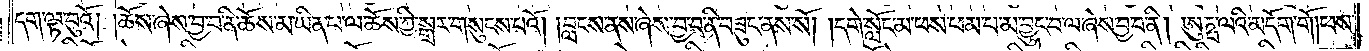དག་ལྟ་བུའོ། །ཆོས་ཞེས་བྱ་བ་ནི་ཆོས་མ་ཡིན་པ་ལ་ཆོས་ཀྱི་སྒྲར་གསུངས་པའོ། །བླངས་ནས་ཞེས་བྱ་བ་ནི་བཟུང་ནས་སོ། །དགེ་སློང་མ་ཕས་ཕམ་པ་མ་བྱུང་བ་ལ་ཞེས་བྱ་བ་ནི། ཨུཏྤ་ལའི་མདོག་གོ །ཕས་
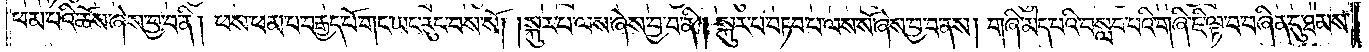ཕམ་པའི་ཆོས་ཞེས་བྱ་བ་ནི། ཕས་ཕམ་པ་བརྒྱད་པོ་གང་ཡང་རུང་བས་སོ། །སྐུར་པ་ལས་ཞེས་བྱ་བ་ནི། སྐུར་བ་བཏབ་པ་ལས་སོ་ཞེས་བྱ་བ་ནས། གཞི་མེད་པའི་བསླབ་པའི་གཞི་ཇི་ལྟ་བ་བཞིན་དུ་ཐམས་
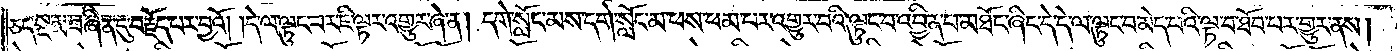ཅད་སྔ་མ་བཞིན་དུ་བརྗོད་པར་བྱའོ། །དེ་ལ་ལྟུང་བར་ཇི་ལྟར་འགྱུར་ཞེ་ན། དགེ་སློང་མས་དགེ་སློང་མ་ཕས་ཕམ་པར་འགྱུར་བའི་ལྟུང་བ་བྱིན་པ་མཐོང་ཞིང་དེ་དེ་ལ་ལྟུང་བ་མེད་པའི་ལྟ་བ་ཐོབ་པར་གྱུར་ནས།
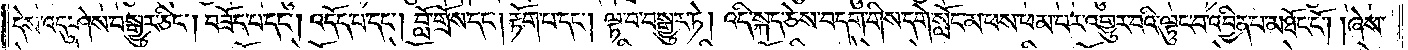དེས་འདུ་ཤེས་བསྒྱུར་ཅིང༌། བཟོད་པ་དང༌། འདོད་པ་དང༌། བློ་གྲོས་དང༌། རྟོག་པ་དང༌། ལྟ་བ་བསྒྱུར་ཏེ། འདི་སྐད་ཅེས་བདག་གིས་དགེ་སློང་མ་ཕས་ཕམ་པར་འགྱུར་བའི་ལྟུང་བ་འབྱིན་པ་མཐོང་ངོ༌། །ཞེས་
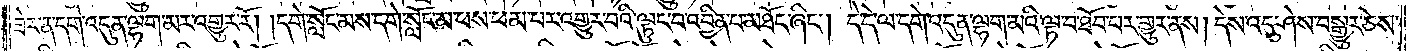ཟེར་ན་དགེ་འདུན་ལྷག་མར་འགྱུར་རོ། །དགེ་སློང་མས་དགེ་སློང་མ་ཕས་ཕམ་པར་འགྱུར་བའི་ལྟུང་བ་འབྱིན་པ་མཐོང་ཞིང༌། དེ་དེ་ལ་དགེ་འདུན་ལྷག་མའི་ལྟ་བ་ཐོབ་པར་གྱུར་ནས། དེས་འདུ་ཤེས་བསྒྱུར་ཅེས་
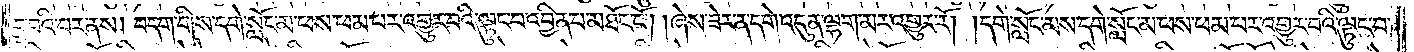བྱ་བའི་བར་ནས། བདག་གིས་དགེ་སློང་མ་ཕས་ཕམ་པར་འགྱུར་བའི་ལྟུང་བ་འབྱིན་པ་མཐོང་ངོ༌། །ཞེས་ཟེར་ན་དགེ་འདུན་ལྷག་མར་འགྱུར་རོ། །དགེ་སློང་མས་དགེ་སློང་མ་ཕས་ཕམ་པར་འགྱུར་བའི་ལྟུང་བ་
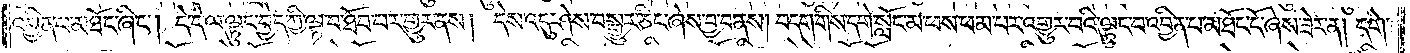འབྱིན་པ་མཐོང་ཞིང༌། དེ་དེ་ལ་ལྟུང་བྱེད་ཀྱི་ལྟ་བ་ཐོབ་པར་གྱུར་ནས། དེས་འདུ་ཤེས་བསྒྱུར་ཅིང་ཞེས་བྱ་བ་ནས། བདག་གིས་དགེ་སློང་མ་ཕས་ཕམ་པར་འགྱུར་བའི་ལྟུང་བ་འབྱིན་པ་མཐོང་ངོ་ཞེས་ཟེར་ན། དགེ་
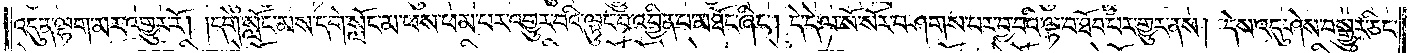འདུན་ལྷག་མར་འགྱུར་རོ། །དགེ་སློང་མས་དགེ་སློང་མ་ཕས་ཕམ་པར་འགྱུར་བའི་ལྟུང་བ་འབྱིན་པ་མཐོང་ཞིང༌། དེ་དེ་ལ་སོ་སོར་བཤགས་པར་བྱ་བའི་ལྟ་བ་ཐོབ་པར་གྱུར་ནས། དེས་འདུ་ཤེས་བསྒྱུར་ཅིང་
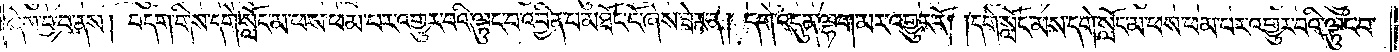ཞེས་བྱ་བ་ནས། བདག་གིས་དགེ་སློང་མ་ཕས་ཕམ་པར་འགྱུར་བའི་ལྟུང་བ་འབྱིན་པ་མཐོང་ངོ་ཞེས་ཟེར་ན། དགེ་འདུན་ལྷག་མར་འགྱུར་རོ། །དགེ་སློང་མས་དགེ་སློང་མ་ཕས་ཕམ་པར་འགྱུར་བའི་ལྟུང་བ་
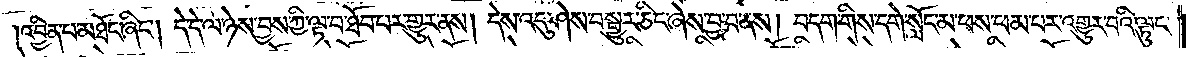འབྱིན་པ་མཐོང་ཞིང༌། དེ་དེ་ལ་ཉེས་བྱས་ཀྱི་ལྟ་བ་ཐོབ་པར་གྱུར་ནས། དེས་འདུ་ཤེས་བསྒྱུར་ཅིང་ཞེས་བྱ་བ་ནས། བདག་གིས་དགེ་སློང་མ་ཕས་ཕམ་པར་འགྱུར་བའི་ལྟུང་
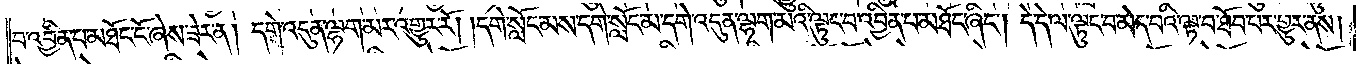བ་འབྱིན་པ་མཐོང་ངོ་ཞེས་ཟེར་ན། དགེ་འདུན་ལྷག་མར་འགྱུར་རོ། །དགེ་སློང་མས་དགེ་སློང་མ་དགེ་འདུན་ལྷག་མའི་ལྟུང་བ་འབྱིན་པ་མཐོང་ཞིང༌། དེ་དེ་ལ་ལྟུང་བ་མེད་པའི་ལྟ་བ་ཐོབ་པར་གྱུར་ནས།
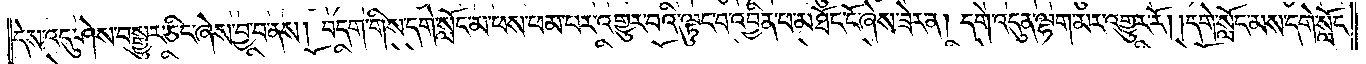དེས་འདུ་ཤེས་བསྒྱུར་ཅིང་ཞེས་བྱ་བ་ནས། བདག་གིས་དགེ་སློང་མ་ཕས་ཕམ་པར་འགྱུར་བའི་ལྟུང་བ་འབྱིན་པ་མཐོང་ངོ་ཞེས་ཟེར་ན། དགེ་འདུན་ལྷག་མར་འགྱུར་རོ། །དགེ་སློང་མས་དགེ་སློང་
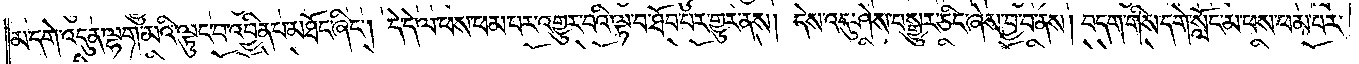མ་དགེ་འདུན་ལྷག་མའི་ལྟུང་བ་འབྱིན་པ་མཐོང་ཞིང༌། དེ་དེ་ལ་ཕས་ཕམ་པར་འགྱུར་བའི་ལྟ་བ་ཐོབ་པར་གྱུར་ནས། དེས་འདུ་ཤེས་བསྒྱུར་ཅིང་ཞེས་བྱ་བ་ནས། བདག་གིས་དགེ་སློང་མ་ཕས་ཕམ་པར་
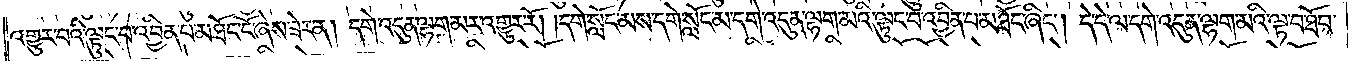འགྱུར་བའི་ལྟུང་བ་འབྱིན་པ་མཐོང་ངོ་ཞེས་ཟེར་ན། དགེ་འདུན་ལྷག་མར་འགྱུར་རོ། །དགེ་སློང་མས་དགེ་སློང་མ་དགེ་འདུན་ལྷག་མའི་ལྟུང་བ་འབྱིན་པ་མཐོང་ཞིང༌། དེ་དེ་ལ་དགེ་འདུན་ལྷག་མའི་ལྟ་བ་ཐོབ་
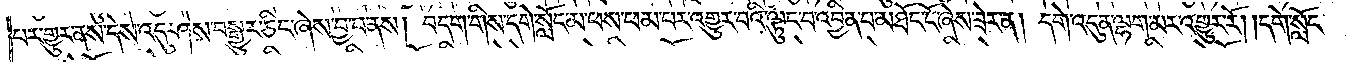པར་གྱུར་ནས་དེས་འདུ་ཤེས་བསྒྱུར་ཅིང་ཞེས་བྱ་བ་ནས། བདག་གིས་དགེ་སློང་མ་ཕས་ཕམ་པར་འགྱུར་བའི་ལྟུང་བ་འབྱིན་པ་མཐོང་ངོ་ཞེས་ཟེར་ན། དགེ་འདུན་ལྷག་མར་འགྱུར་རོ། །དགེ་སློང་
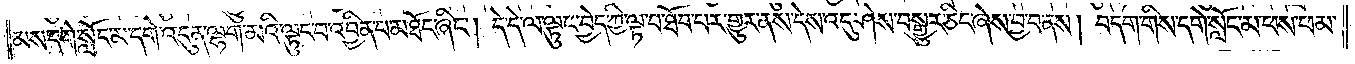མས་དགེ་སློང་མ་དགེ་འདུན་ལྷག་མའི་ལྟུང་བ་འབྱིན་པ་མཐོང་ཞིང༌། དེ་དེ་ལ་ལྟུང་བྱེད་ཀྱི་ལྟ་བ་ཐོབ་པར་གྱུར་ནས་དེས་འདུ་ཤེས་བསྒྱུར་ཅིང་ཞེས་བྱ་བ་ནས། བདག་གིས་དགེ་སློང་མ་ཕས་ཕམ་
